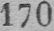170
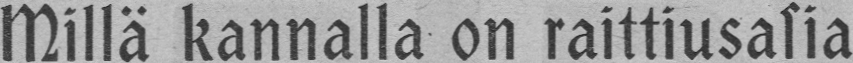Millä kannalla on raittiusasia
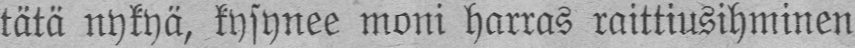tätä nykyä, kysynee moni harras raittiusihminen
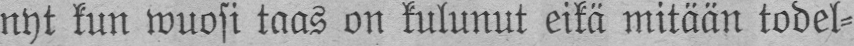nyt kun wuosi taas on kulunut eikä mitään todel-
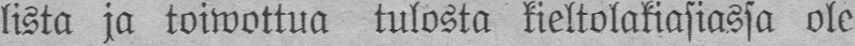lista ja toiwottua tulosta kieltolakiasiassa ole
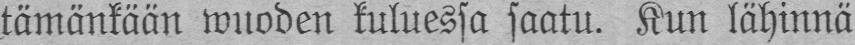tämänkään wuoden kuluessa saatu. Kun lähinnä
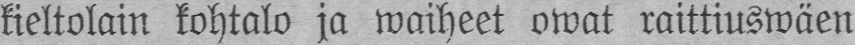kieltolain kohtalo ja waiheet owat raittiuswäen
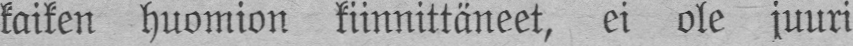kaiken huomion kiinnittäneet, ei ole juuri
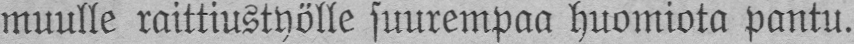muulle raittiustyölle suurempaa huomiota pantu.
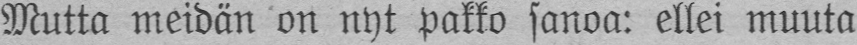Mutta meidän on nyt pakko sanoa: ellei muuta
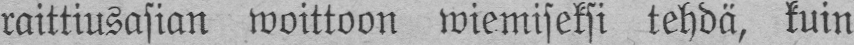raittiusasian woittoon wiemiseksi tehdä, kuin
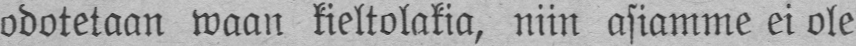odotetaan waan kieltolakia, niin asiamme ei ole
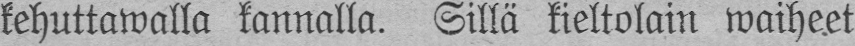kehuttawalla kannalla. Sillä kieltolain waiheet
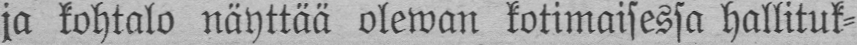ja kohtalo näyttää olewan kotimaisessa hallituk-
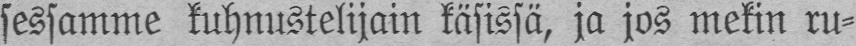sessamme kuhnustelijain käsissä, ja jos mekin ru-
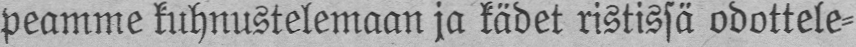peamme kuhnustelemaan ja kädet ristissä odottele-
